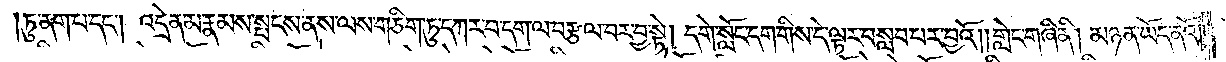།ཏུ་ནག་པ་དང༌། འདྲེན་མ་རྣམས་སྤངས་ནས་ལས་གཅིག་ཏུ་དཀར་བ་དག་ལ་བརྩལ་བར་བྱ་སྟེ། དགེ་སློང་དག་གིས་དེ་ལྟར་བསླབ་པར་བྱའོ། །གླེང་གཞི་ནི། མཉན་ཡོད་ནའོ་
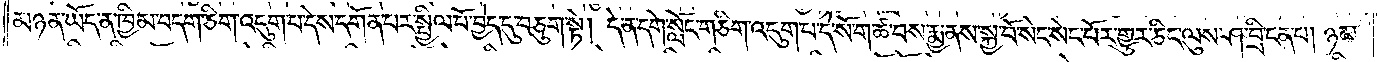མཉན་ཡོད་ན་ཁྱིམ་བདག་ཅིག་འདུག་པ་དེས་དགོན་པར་སྤྱིལ་པོ་བྱེད་དུ་བཅུག་སྟེ། དེ་ན་དགེ་སློང་གཅིག་འདུག་པ་དེ་སོ་ག་ཚ་བས་རྨྱ་ནས་སྐྱ་བོ་སེང་སེང་པོར་གྱུར་ཅིང་ལུས་ཤ་བྲི་ངན་པ། ཉམ་
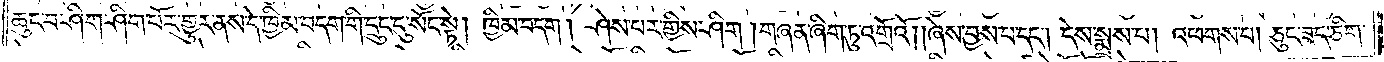ཆུང་བ་ཤིག་ཤིག་པོར་གྱུར་ནས་དེ་ཁྱིམ་བདག་གི་དྲུང་དུ་སོང་སྟེ། ཁྱིམ་བདག། ཤེས་པར་གྱིས་ཤིག །གཞན་ཞིག་ཏུ་འགྲོའོ། །ཞེས་བྱས་པ་དང༌། དེས་སྨྲས་པ། འཕགས་པ། ཅུང་ཟད་ཅིག་
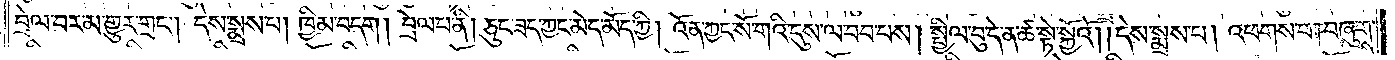བྲེལ་བར་མ་གྱུར་གྲང༌། དེས་སྨྲས་པ། ཁྱིམ་བདག། བྲེལ་པ་ནི། ཅུང་ཟད་ཀྱང་མེད་མོད་ཀྱི། འོན་ཀྱང་སོ་གའི་དུས་ལ་བབ་པས། སྤྱིལ་བུ་དེ་ན་ཚ་སྟེ་སྐྱོའོ། །དེས་སྨྲས་པ། འཕགས་པ། བཞུགས་
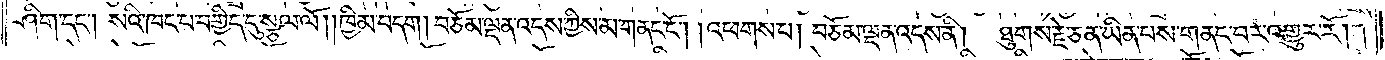ཤིག་དང༌། སའི་ཁང་པ་བགྱིད་དུ་སྩལ་ལོ། །ཁྱིམ་བདག། བཅོམ་ལྡན་འདས་ཀྱིས་མ་གནང་ངོ༌། །འཕགས་པ། བཅོམ་ལྡན་འདས་ནི། ཐུགས་རྗེ་ཅན་ཡིན་པས་གནང་བར་འགྱུར་རོ། །
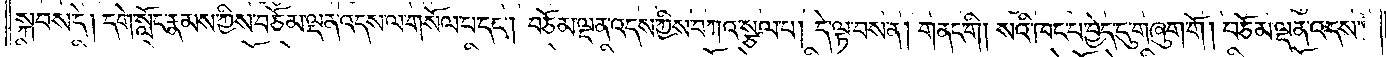སྐབས་དེ། དགེ་སློང་རྣམས་ཀྱིས་བཅོམ་ལྡན་འདས་ལ་གསོལ་པ་དང༌། བཅོམ་ལྡན་འདས་ཀྱིས་བཀའ་སྩལ་པ། དེ་ལྟ་བས་ན། གནང་གི། སའི་ཁང་པ་བྱེད་དུ་གཞུག་གོ། །བཅོམ་ལྡན་འདས་
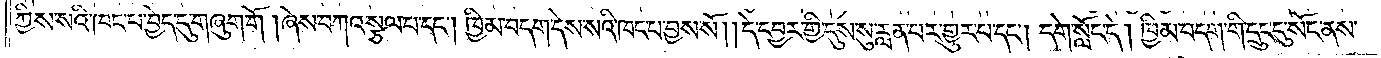ཀྱིས་སའི་ཁང་པ་བྱེད་དུ་གཞུག་གོ །ཞེས་བཀའ་སྩལ་པ་དང༌། ཁྱིམ་བདག་དེས་སའི་ཁང་པ་བྱས་སོ། །དེ་དབྱར་གྱི་དུས་སུ་རླན་པར་གྱུར་པ་དང༌། དགེ་སློང་དེ། ཁྱིམ་བདག་གི་དྲུང་དུ་སོང་ནས་
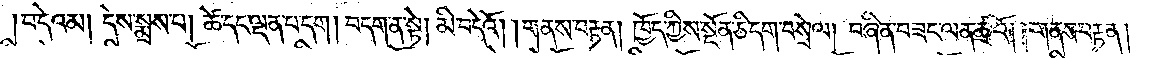བ་དེའམ། དེས་སྨྲས་པ། ཚེ་དང་ལྡན་པ་དག། བདག་ན་སྟེ། མི་བདེའོ། །གནས་བརྟན། ཁྱོད་ཀྱིས་སྔོན་ཅི་དག་བསྲེལ། བཞིན་བཟང་ལན་ཚྭའོ། །གནས་བརྟན།
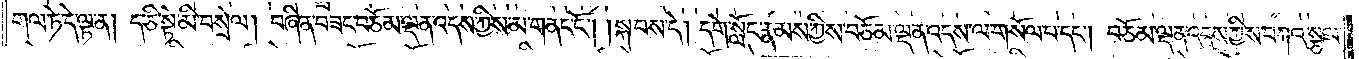གལ་ཏེ་དེ་ལྟ་ན། ད་ཅི་སྟེ་མི་བསྲེལ། བཞིན་བཟང་བཅོམ་ལྡན་འདས་ཀྱིས་མ་གནང་ངོ༌། །སྐབས་དེ། དགེ་སློང་རྣམས་ཀྱིས་བཅོམ་ལྡན་འདས་ལ་གསོལ་པ་དང༌། བཅོམ་ལྡན་འདས་ཀྱིས་བཀའ་སྩལ་
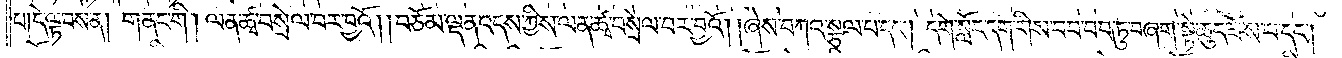པ། དེ་ལྟ་བས་ན། གནང་གི། ལན་ཚྭ་བསྲེལ་བར་བྱའོ། །བཅོམ་ལྡན་འདས་ཀྱིས་ལན་ཚྭ་བསྲེལ་བར་བྱའོ། །ཞེས་བཀའ་སྩལ་པ་དང༌། དགེ་སློང་དག་གིས་བབ་བབ་ཏུ་བཞག་སྟེ་ཆུད་ཟོས་པ་དང༌།
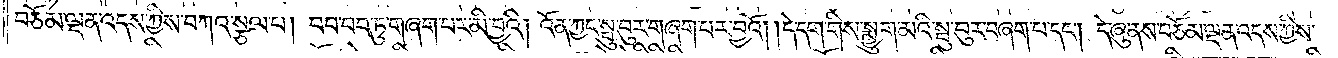བཅོམ་ལྡན་འདས་ཀྱིས་བཀའ་སྩལ་པ། བབ་བབ་ཏུ་གཞག་པར་མི་བྱའི། །འོན་ཀྱང་སྦུ་བུར་གཞག་པར་བྱའོ། །དེ་དག་གིས་སྨྱུག་མའི་སྦུ་བུར་བཞག་པ་དང༌། དེ་ཞུ་ནས་བཅོམ་ལྡན་འདས་ཀྱིས་
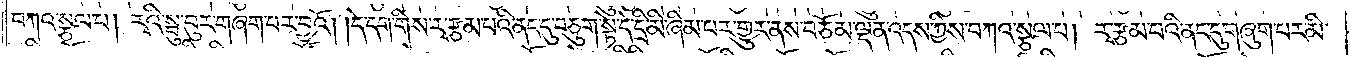བཀའ་སྩལ་པ། རྭའི་སྦུ་བུར་གཞག་པར་བྱའོ། །དེ་དག་གིས་རྭ་རྩམ་པའི་ནང་དུ་བཅུག་སྟེ་དེ་དྲི་མི་ཞིམ་པར་གྱུར་ནས་བཅོམ་ལྡན་འདས་ཀྱིས་བཀའ་སྩལ་པ། རྭ་རྩམ་པའི་ནང་དུ་གཞུག་པར་མི་
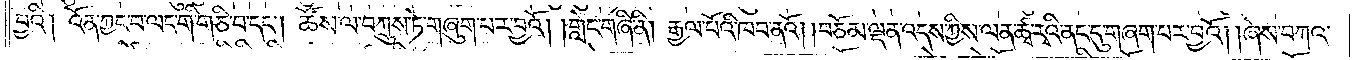བྱའི། འོན་ཀྱང་བ་ལང་གི་གཅི་བ་དང༌། ཚོས་ལ་བཀྲུས་ཏེ་གཞུག་པར་བྱའོ། །གླེང་གཞི་ནི། རྒྱལ་པོའི་ཁབ་ནའོ། །བཅོམ་ལྡན་འདས་ཀྱིས་ལན་ཚྭ་རྭའི་ནང་དུ་གཞག་པར་བྱའོ། །ཞེས་བཀའ་
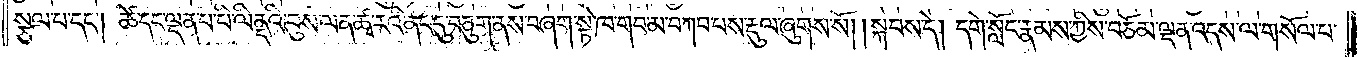སྩལ་པ་དང༌། ཚེ་དང་ལྡན་པ་པི་ལིནདའི་བུས་ལན་ཚྭ་རའི་ནང་དུ་བཅུག་ནས་བཞག་སྟེ་ཁ་གབ་མ་བཀབ་པས་རྡུལ་ཞུགས་སོ། །སྐབས་དེ། དགེ་སློང་རྣམས་ཀྱིས་བཅོམ་ལྡན་འདས་ལ་གསོལ་པ་
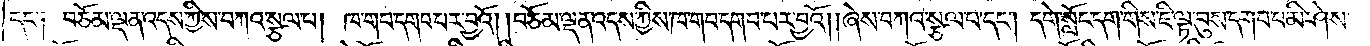དང་༑ བཅོམ་ལྡན་འདས་ཀྱིས་བཀའ་སྩལ་པ། ཁ་གབ་དགབ་པར་བྱའོ། །བཅོམ་ལྡན་འདས་ཀྱིས་ཁ་གབ་དགབ་པར་བྱའོ། །ཞེས་བཀའ་སྩལ་པ་དང༌། དགེ་སློང་དག་གིས་ཇི་ལྟ་བུས་དགབ་པ་མི་ཤེས་
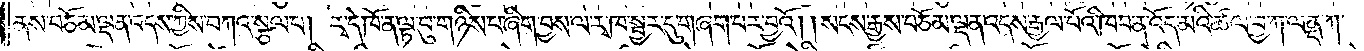ནས་བཅོམ་ལྡན་འདས་ཀྱིས་བཀའ་སྩལ་པ། རྭ་དེ་ཁོ་ན་ལྟ་བུ་གཉིས་པ་ཞིག་བྱས་ལ་རྭ་ཁ་སྦྱར་དུ་གཞག་པར་བྱའོ། །སངས་རྒྱས་བཅོམ་ལྡན་འདས་རྒྱལ་པོའི་ཁབ་ན་འོད་མའི་ཚལ་བྱ་ཀ་ལནྡ་ཀ་
